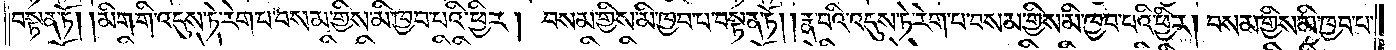བསྟན་ཏོ། །མིག་གི་འདུས་ཏེ་རེག་པ་བསམ་གྱིས་མི་ཁྱབ་པའི་ཕྱིར། བསམ་གྱིས་མི་ཁྱབ་པ་བསྟན་ཏོ། །རྣ་བའི་འདུས་ཏེ་རེག་པ་བསམ་གྱིས་མི་ཁྱབ་པའི་ཕྱིར། བསམ་གྱིས་མི་ཁྱབ་པ་
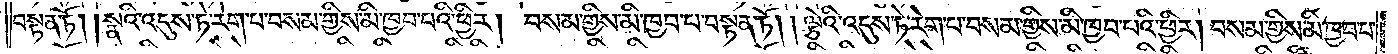བསྟན་ཏོ། །སྣའི་འདུས་ཏེ་རེག་པ་བསམ་གྱིས་མི་ཁྱབ་པའི་ཕྱིར། བསམ་གྱིས་མི་ཁྱབ་པ་བསྟན་ཏོ། །ལྕེའི་འདུས་ཏེ་རེག་པ་བསམ་གྱིས་མི་ཁྱབ་པའི་ཕྱིར། བསམ་གྱིས་མི་ཁྱབ་པ་
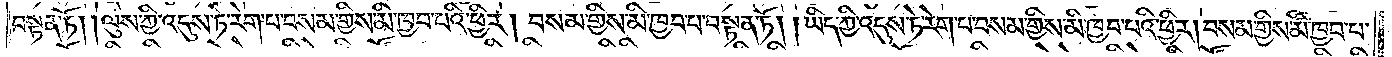བསྟན་ཏོ། །ལུས་ཀྱི་འདུས་ཏེ་རེག་པ་བསམ་གྱིས་མི་ཁྱབ་པའི་ཕྱིར། བསམ་གྱིས་མི་ཁྱབ་པ་བསྟན་ཏོ། །ཡིད་ཀྱི་འདུས་ཏེ་རེག་པ་བསམ་གྱིས་མི་ཁྱབ་པའི་ཕྱིར། བསམ་གྱིས་མི་ཁྱབ་པ་
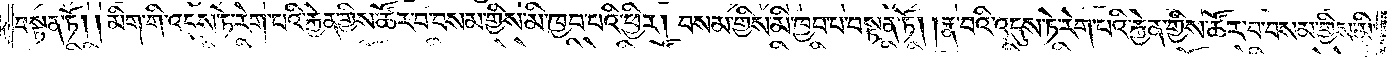བསྟན་ཏོ། །མིག་གི་འདུས་ཏེ་རེག་པའི་རྐྱེན་གྱིས་ཚོར་བ་བསམ་གྱིས་མི་ཁྱབ་པའི་ཕྱིར། བསམ་གྱིས་མི་ཁྱབ་པ་བསྟན་ཏོ། །རྣ་བའི་འདུས་ཏེ་རེག་པའི་རྐྱེན་གྱིས་ཚོར་བ་བསམ་གྱིས་མི་
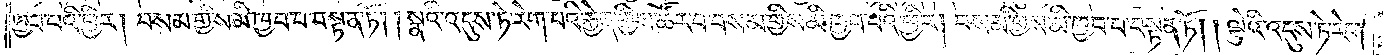ཁྱབ་པའི་ཕྱིར། བསམ་གྱིས་མི་ཁྱབ་པ་བསྟན་ཏོ། །སྣའི་འདུས་ཏེ་རེག་པའི་རྐྱེན་གྱིས་ཚོར་བ་བསམ་གྱིས་མི་ཁྱབ་པའི་ཕྱིར། བསམ་གྱིས་མི་ཁྱབ་པ་བསྟན་ཏོ། །ལྕེའི་འདུས་ཏེ་རེག་
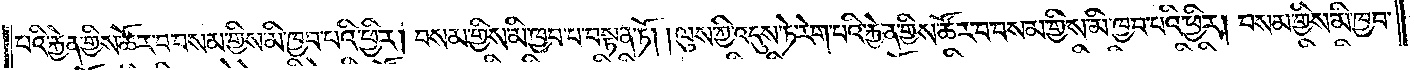པའི་རྐྱེན་གྱིས་ཚོར་བ་བསམ་གྱིས་མི་ཁྱབ་པའི་ཕྱིར། བསམ་གྱིས་མི་ཁྱབ་པ་བསྟན་ཏོ། །ལུས་ཀྱི་འདུས་ཏེ་རེག་པའི་རྐྱེན་གྱིས་ཚོར་བ་བསམ་གྱིས་མི་ཁྱབ་པའི་ཕྱིར། བསམ་གྱིས་མི་ཁྱབ་
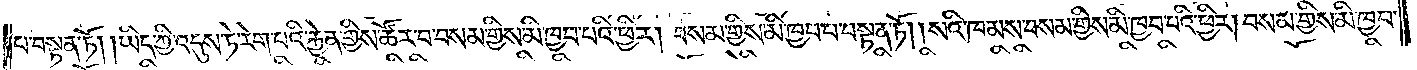པ་བསྟན་ཏོ། །ཡིད་ཀྱི་འདུས་ཏེ་རེག་པའི་རྐྱེན་གྱིས་ཚོར་བ་བསམ་གྱིས་མི་ཁྱབ་པའི་ཕྱིར། བསམ་གྱིས་མི་ཁྱབ་པ་བསྟན་ཏོ། །སའི་ཁམས་བསམ་གྱིས་མི་ཁྱབ་པའི་ཕྱིར། བསམ་གྱིས་མི་ཁྱབ་
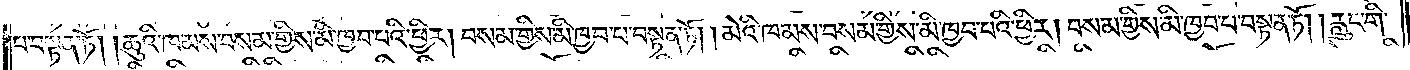པ་བསྟན་ཏོ། །ཆུའི་ཁམས་བསམ་གྱིས་མི་ཁྱབ་པའི་ཕྱིར། བསམ་གྱིས་མི་ཁྱབ་པ་བསྟན་ཏོ། །མེའི་ཁམས་བསམ་གྱིས་མི་ཁྱབ་པའི་ཕྱིར། བསམ་གྱིས་མི་ཁྱབ་པ་བསྟན་ཏོ། །རླུང་གི་
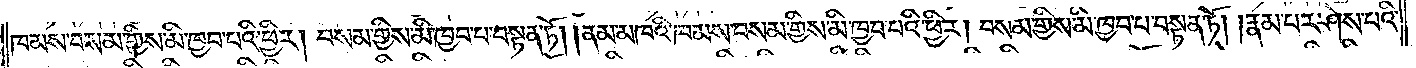ཁམས་བསམ་གྱིས་མི་ཁྱབ་པའི་ཕྱིར། བསམ་གྱིས་མི་ཁྱབ་པ་བསྟན་ཏོ། །ནམ་མཁའི་ཁམས་བསམ་གྱིས་མི་ཁྱབ་པའི་ཕྱིར། བསམ་གྱིས་མི་ཁྱབ་པ་བསྟན་ཏོ། །རྣམ་པར་ཤེས་པའི་
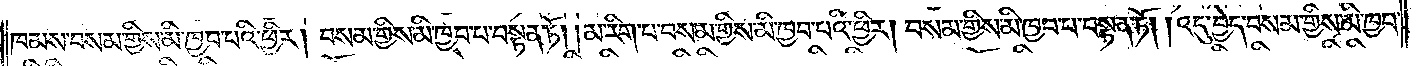ཁམས་བསམ་གྱིས་མི་ཁྱབ་པའི་ཕྱིར། བསམ་གྱིས་མི་ཁྱབ་པ་བསྟན་ཏོ། །མ་རིག་པ་བསམ་གྱིས་མི་ཁྱབ་པའི་ཕྱིར། བསམ་གྱིས་མི་ཁྱབ་པ་བསྟན་ཏོ། །འདུ་བྱེད་བསམ་གྱིས་མི་ཁྱབ་
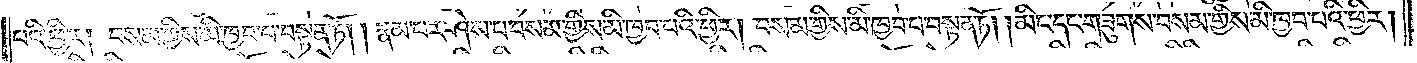པའི་ཕྱིར། བསམ་གྱིས་མི་ཁྱབ་པ་བསྟན་ཏོ། །རྣམ་པར་ཤེས་པ་བསམ་གྱིས་མི་ཁྱབ་པའི་ཕྱིར། བསམ་གྱིས་མི་ཁྱབ་པ་བསྟན་ཏོ། །མིང་དང་གཟུགས་བསམ་གྱིས་མི་ཁྱབ་པའི་ཕྱིར།
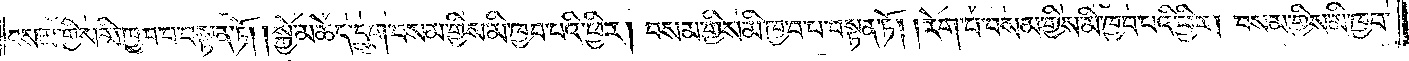བསམ་གྱིས་མི་ཁྱབ་པ་བསྟན་ཏོ། །སྐྱེ་མཆེད་དྲུག་བསམ་གྱིས་མི་ཁྱབ་པའི་ཕྱིར། བསམ་གྱིས་མི་ཁྱབ་པ་བསྟན་ཏོ། །རེག་པ་བསམ་གྱིས་མི་ཁྱབ་པའི་ཕྱིར། བསམ་གྱིས་མི་ཁྱབ་
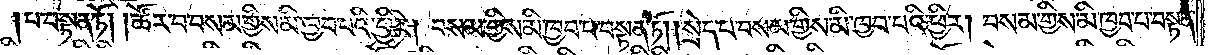པ་བསྟན་ཏོ། །ཚོར་བ་བསམ་གྱིས་མི་ཁྱབ་པའི་ཕྱིར། བསམ་གྱིས་མི་ཁྱབ་པ་བསྟན་ཏོ། །སྲེད་པ་བསམ་གྱིས་མི་ཁྱབ་པའི་ཕྱིར། བསམ་གྱིས་མི་ཁྱབ་པ་བསྟན་
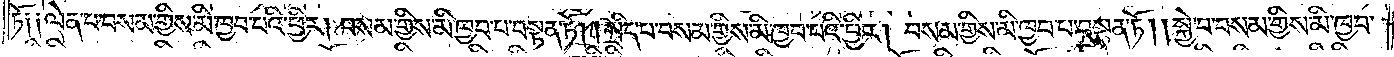ཏོ༑ ༑ལེན་པ་བསམ་གྱིས་མི་ཁྱབ་པའི་ཕྱིར། བསམ་གྱིས་མི་ཁྱབ་པ་བསྟན་ཏོ། །སྲིད་པ་བསམ་གྱིས་མི་ཁྱབ་པའི་ཕྱིར། བསམ་གྱིས་མི་ཁྱབ་པ་བསྟན་ཏོ། །སྐྱེ་བ་བསམ་གྱིས་མི་ཁྱབ་
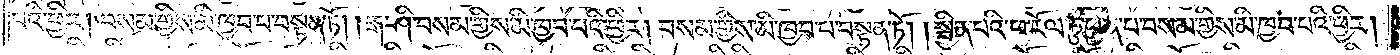པའི་ཕྱིར། བསམ་གྱིས་མི་ཁྱབ་པ་བསྟན་ཏོ། །རྒ་ཤི་བསམ་གྱིས་མི་ཁྱབ་པའི་ཕྱིར། བསམ་གྱིས་མི་ཁྱབ་པ་བསྟན་ཏོ། །སྦྱིན་པའི་ཕ་རོལ་ཏུ་ཕྱིན་པ་བསམ་གྱིས་མི་ཁྱབ་པའི་ཕྱིར།
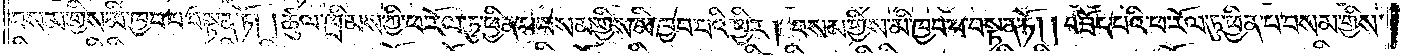བསམ་གྱིས་མི་ཁྱབ་པ་བསྟན་ཏོ། །ཚུལ་ཁྲིམས་ཀྱི་ཕ་རོལ་ཏུ་ཕྱིན་པ་བསམ་གྱིས་མི་ཁྱབ་པའི་ཕྱིར། བསམ་གྱིས་མི་ཁྱབ་པ་བསྟན་ཏོ། །བཟོད་པའི་ཕ་རོལ་ཏུ་ཕྱིན་པ་བསམ་གྱིས་
